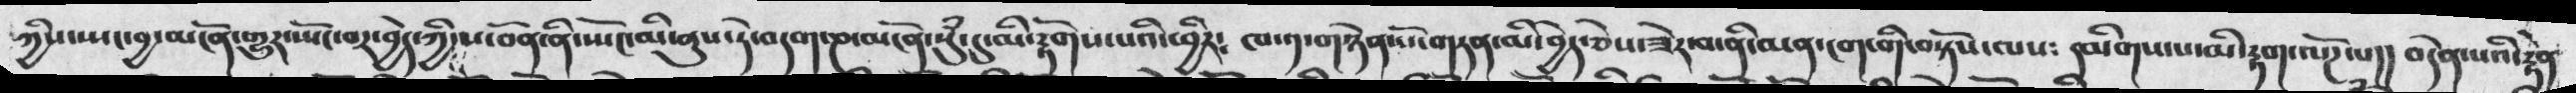ཀྱིས་སྤང་བྱ་མངོན་གྱུར་སྤོང་བར་བྱེད་ཀྱིས་ས་བོན་ནི་སྤོང་མི་ནུས་ཏེ་བདག་ཎ་མངོན་སུཾ་དུ་མི་རྟོགས་པའི་ཕྱིར༴  ཁ་༡་གཉེན་པོ་གཏན་མི་བྱེད་ཅེས་ཟེར་བ་ནི་མན་ངག་གི་བསྡོས་ལས༴  དམིགས་པ་མི་རྟག་ལོཌ་པ།།  བདེན་པའི་རྟེན་
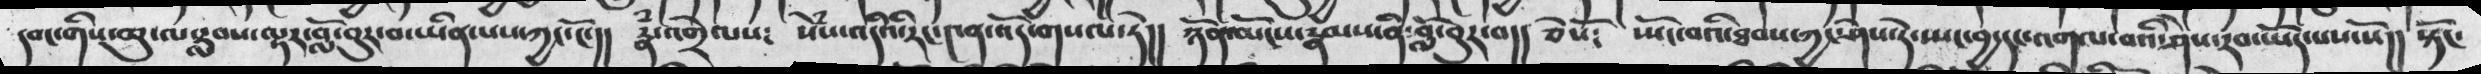དབང་གིས་ཆུ་ལ་རླབས་ལྟར་བློ་བུར་བ་ཡིན་པས་ཀྱང་ངོ་།། རྣཾ་འགྲེལས༴  སེཾས་འདིའི་རང་༤ན་འོད་གསལ་ཏེ།།  ཉོན་མོངས་རྣམས་ནི་བློ་བུར་བ།།  ཅེསོ། སྤོང་བའི་ཐབས་ཀྱང་ཤེས་དེ་ཡང་བྱ་དང་འགལ་བའི་ཤེས་རབ་ཡོད་པས་སོ།། སྟོང་
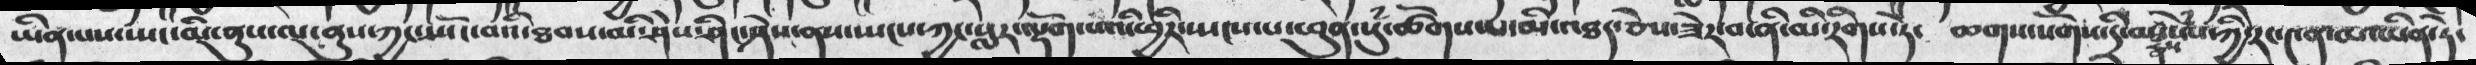ཡིན་པས་སྤང་མི་ནུས་ལ་ནུས་ཀྱང་སྤོང་བའི་ཐབས་མི་ཤེས་ཤིང་ཤེས་ནས་སྤངས་ཀྱང་སླར་ལྡོག་པའི་ཕྱིར་སྤངས་པ་ཕུན་སུཾ་ཚོགས་པ་མི་འཐད་ཅེས་ཟེར་བ་ནི་མི་རིགས་ཏེ༴  ཆགས་སོགས་དྲི་མས་རྣཾས་ཀྱི་རང་༤ན་མ་ཡིན་ཏེ་
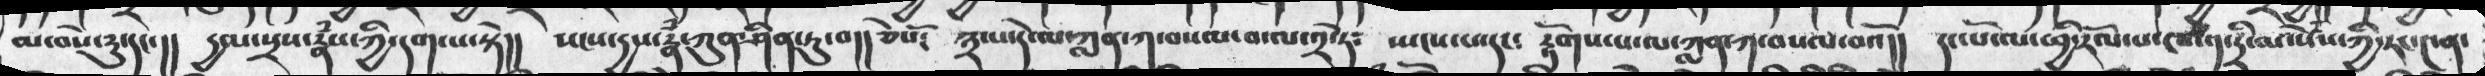མ་བསེ་རུ་དང་།།  དྱལ་སྲས་རྣཾས་ཀྱི་དག་པ་སྟེ།།  སངས་དྱས་རྣམ་ཀུན་ཤིན་ཏུ་བ།། ཅེསོ༴ ༣་པ་དེ་ལ་ཀླན་ཀ་བསལ་བ་༢་ཏེ༴  སྤངས་པ་དང༴   རྟོགས་པ་ལ་ཀླན་ཀ་བསལ་བའོ།།  དང་པོ་ལ་ཕྱི་རོལ་པ་ཁ་གཅིག་དྲི་མ་སེཾས་ཀྱི་རང་༤ན་
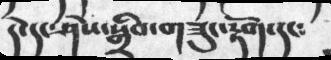དེ་དང་ཤེས་སྒྲིབ་གཟུང་རྟོག་དང༴
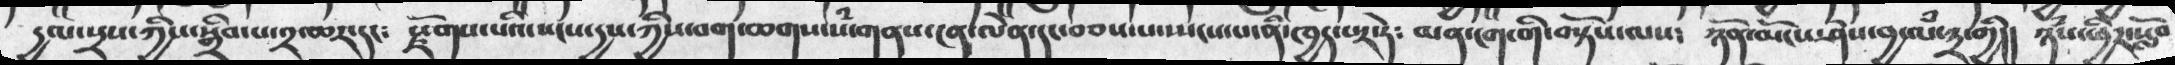དྱལ་སྲས་ཀྱིས་སྒྲིབ་པ་༢་ཆར་དང༴  རྫོགས་པའི་སངས་དྱས་ཀྱིས་བག་ཆགས་སཾ་གནས་ངན་ལེན་དང་བཅས་པ་སྤངས་པ་ནི་ཁྱད་པར་དེ༴  མན་ངག་གི་བསྟོས་ལས༴  ཉོན་མོངས་ཤེས་བྱ་ལཾ་༣་གྱི།། ཉཾས་ཕྱིར་སློབ
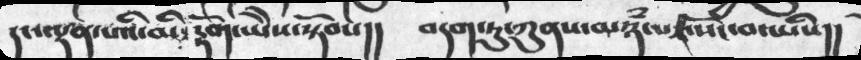དང་ལྡན་པའི་མི་རྟོག་ཡེེས་སྟོབས།།  བདག་ཏུ་ཀུནས་མཉཾ་པར་སོང་བ་ཡིས།།
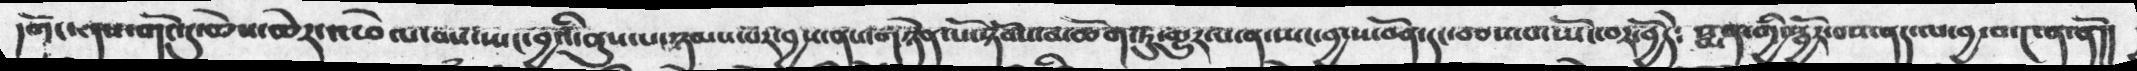དགོང་ཤས་གོང་དུ་ཆེས་ཆེར་འཕེལ་བས་སྤང་བྱའི་ནུས་པ་ཉམས་པར་བྱས་ནས་གཉེན་པོ་སྟོབས་མཆོག་ཏུ་གྱུར་པ་ན་སྤང་བྱ་ས་བོན་དང་བཅས་པ་སྤོང་བར་བྱེད༴  སྨན་གྱི་སྦྱོར་བས་ནད་ལ་བྱ་བ་༤ན་ནོ།།
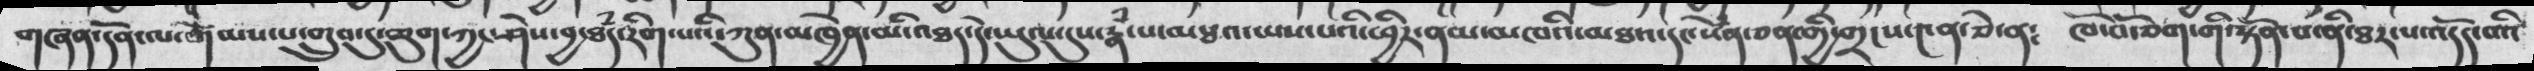གཞན་དོན་ལ་གོམས་པ་གྲུབ་ཏུ་ཆུག་ཀྱང་ཤེས་བྱ་ཐཾད་རིག་པའི་ཀུན་མཁྱེན་མི་འཐད་དེ་ཡུལ་དུས་རྣཾ་པ་མཐའ་ཡས་པའི་ཕྱིར་ནམ་མཁའི་མཐའ་དང་སེཾན་ཅན་གྱི་གྲངས་༤ན་ཅེ་ན༴  ཁོ་བོ་ཅག་གི་སྟོན་པ་ནི་ཐར་པ་འདོད་པའི
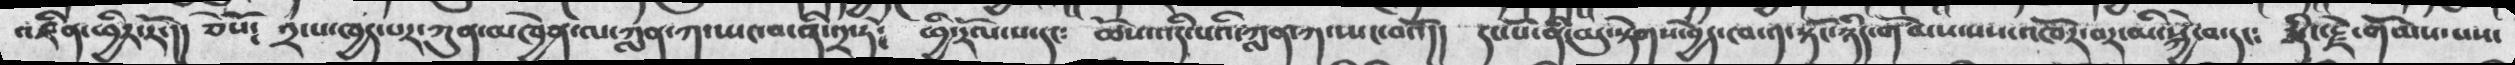འཛིན་ཕྱིར་རོ་།།  ཅེསོ༴  ༢་པ་ཁྱད་པར་ཀུན་མཁྱེན་ལ་ཀླན་ཀ་ཡང་བ་ནི་༢་ཏེ༴   ཕྱི་རོལ་པ་དང༴   ཆོས་འདི་པའི་ཀླན་ཀ་ཡང་བའོ།།   དང་༷པོ་ནི་མུ་སྟེགས་བྱེད་ཁ་༡་སྟོང་ཉིད་གོམས་པས་འཁོར་བར་མི་སྐྱེ་བ་དང༴  སྙིང་རྗེ་གོམས་པས་
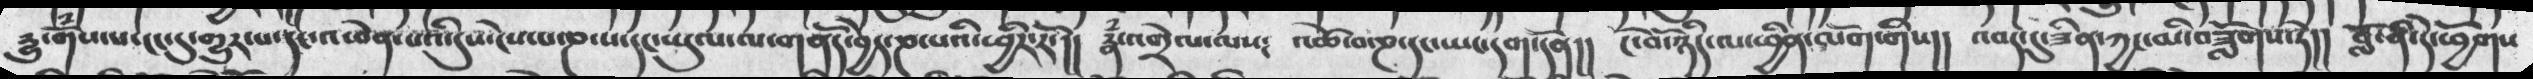དྱུ་གོཾས་པ་ངང་དུ་གྱུར་པ་དང་འཕེན་པའི་དུས་ངེས་པ་ཎ་ས་དང་ཡུལ་ལ་གནོད་བྱེད་ཎ་པའི་ཕྱིར་རོ་།།  རྣཾ་འགྲེལ་ལས༴   འཆོ་བ་ཎ་དང་ཡང་དག་དོན།།  ངོ་བོ་ཉིད་ལ་ཕྱིན་ལོག་གིས།།   འབད་དུ་ཟིན་ཀྱང་མི་བཟློགས་ཏེ།།   བློ་ནི་དེ་ཕྱོགས
